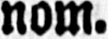nom.
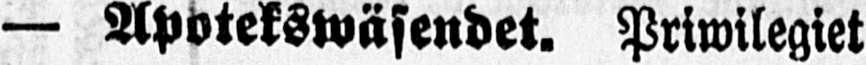— Apotekswäsendet. Priwilegiet
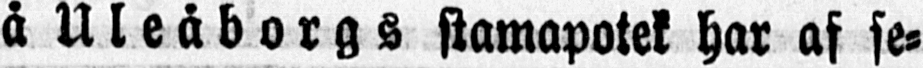å Uleåborgs stamapotek har af se-
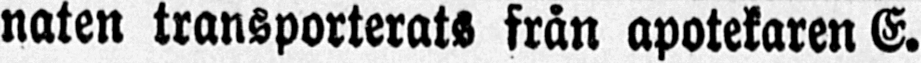naten transporterats från apotekaren E.
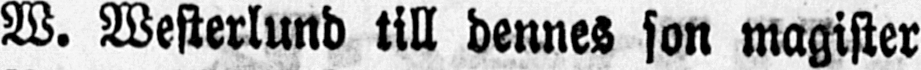W. Westerlund till dennes son magister
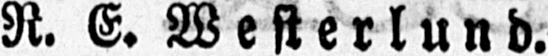R. E. Westerlund.
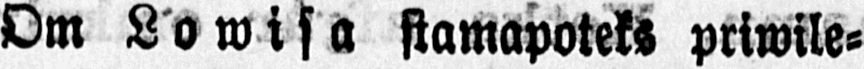Om Lowisa stamapoteks priwile-
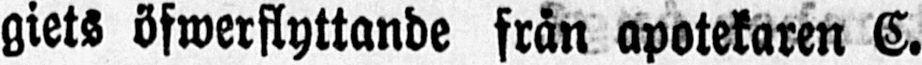giets öfwerflyttande från apotekaren C.
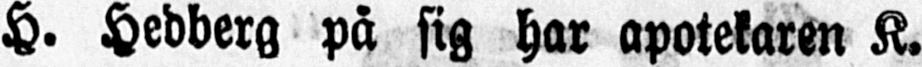H. Hedberg på sig har apotekaren K.
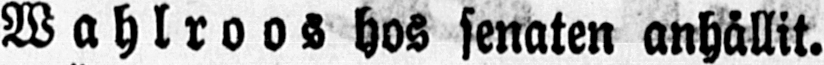Wahlroos hos senaten anhållit.
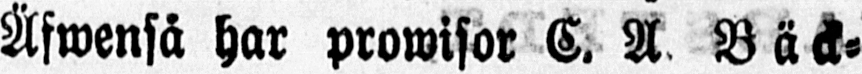Äfwenså har prowisor C. A. Bäck-
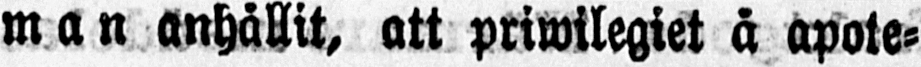man anhållit, att priwilegiet å apote-
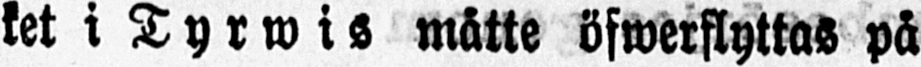ket i T y r w i s måtte öfwerflyttas på
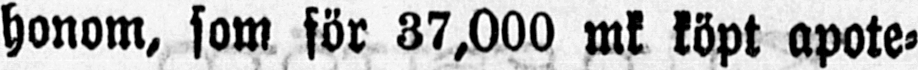honom, som för 37,000 mk köpt apote-
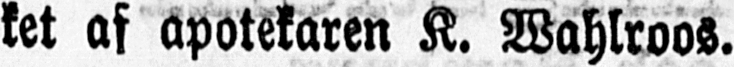ket af apotekaren K. Wahlroos.
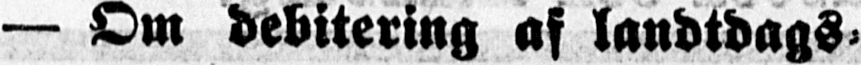— Om debitering af landtdags-
